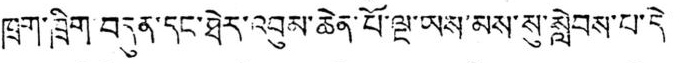ཁྲག་ཁྲིག་བདུན་དང་ཐེར་འབུམ་ཆེན་པོ་ལྔ་ཡས་མས་སུ་སླེབས་པ་དེ་
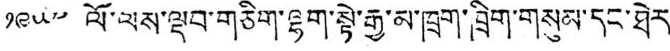༡༩༥༧ ལོ་ལས་ལྡབ་གཅིག་ལྷག་སྟེ་རྒྱ་མ་ཁྲག་ཁྲིག་གསུམ་དང་ཐེར་
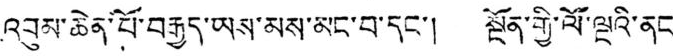འབུམ་ཆེན་པོ་བརྒྱད་ཡས་མས་མང་བ་དང་། སྔོན་གྱི་ལོ་ལྔའི་ནང་
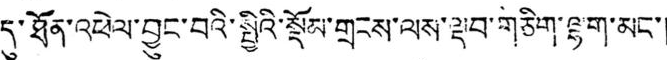དུ་ཐོན་འཕེལ་བྱུང་བའི་སྤྱིའི་སྡོམ་གྲངས་ལས་ལྡབ་གཅིག་ལྷག་མང་།
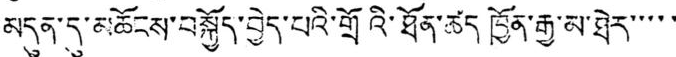མདུན་དུ་མཆོངས་བསྐྱོད་བྱེད་པའི་གྲོའི་ཐོན་ཚད ཁྱོན་རྒྱ་མ་ཐེར་་་་་
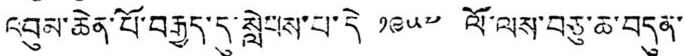འབུམ་ཆེན་པོ་བརྒྱད་དུ་སླེབས་པ་དེ ༡༩༥༧ ལོ་ལས་བཅུ་ཆ་བདུན་
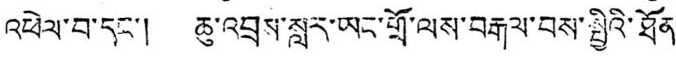འཕེལ་བ་དང་། ཆུ་འབྲས་སླར་ཡང་གྲོ་ལས་བརྒལ་བས་སྤྱིའི་ཐོན་
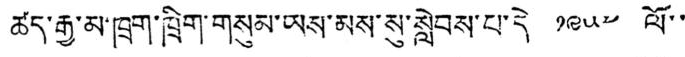ཚད་རྒྱ་མ་ཁྲག་ཁྲིག་གསུམ་ཡས་མས་སུ་སླེབས་པ་དེ ༡༩༥༧ ལོ་་
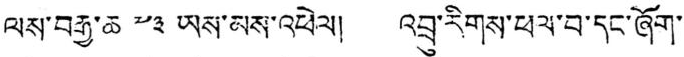ལས་བརྒྱ་ཆ ༧༣ ཡས་མས་འཕེལ། འབྲུ་རིགས་ཕལ་བ་དང་ཞོག་
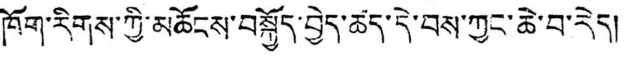ཁོག་རིགས་ཀྱི་མཆོངས་བསྐྱོད་བྱེད་ཚད་དེ་བས་ཀྱང་ཆེ་བ་རེད།
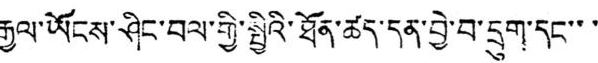རྒྱལ་ཡོངས་ཤིང་བལ་གྱི་སྤྱིའི་ཐོན་ཚད་དན་བྱེ་བ་དྲུག་དང་་་
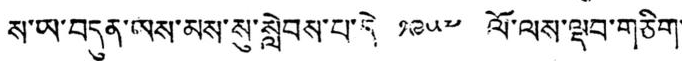ས་ཡ་བདུན་ཡས་མས་སུ་སླེབས་པ་དེ ༡༩༥༧ ལོ་ལས་ལྡབ་གཅིག་
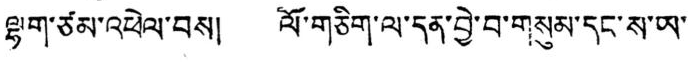ལྷག་ཙམ་འཕེལ་བས། ལོ་གཅིག་ལ་དན་བྱེད་བ་གསུམ་དང་ས་ཡ་
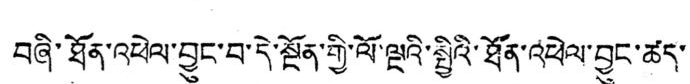བཞི་ཐོན་འཕེལ་བྱུང་བ་དེ་སྔོན་གྱི་ལོ་ལྔའི་སྤྱིའི་ཐོན་འཕེལ་བྱུང་ཚད་
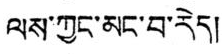ལས་ཀྱང་མང་བ་རེད།
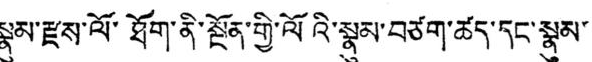སྣུམ་རྫས་ལོ་ཐོག་ནི་སྔོན་གྱི་ལོའི་སྣུམ་བཙག་ཚད་དང་སྣུམ་
